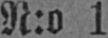N:o 1
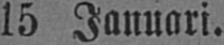15 Januari.
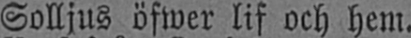Solljus öfwer lif och hem.
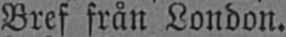Bref från London.
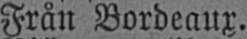Från Bordeaux.
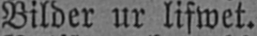Bilder ur lifwet.
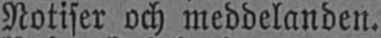Notiser och meddelanden.
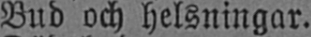Bud och helsningar.
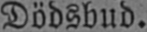Dödsbud.
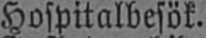Hospitalbesök.
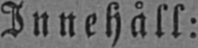Innehåll:
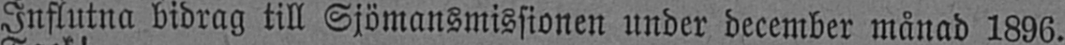Influtna bidrag till Sjömansmissionen under december månad 1896.
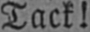Tack!
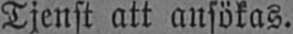Tjenst att ansökas.
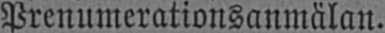Prenumerationsanmälan.
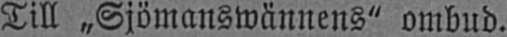Till „Sjömanswännens" ombud.
